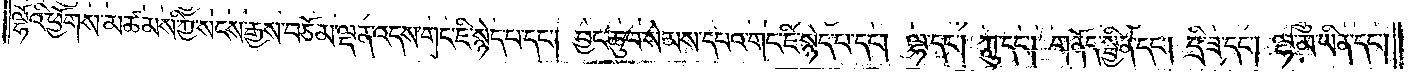ལྷོའི་ཕྱོགས་མཚམས་ཀྱི་སངས་རྒྱས་བཅོམ་ལྡན་འདས་གང་ཇི་སྙེད་པ་དང༌། བྱང་ཆུབ་སེམས་དཔའ་གང་ཇི་སྙེད་པ་དང༌། ལྷ་དང༌། ཀླུ་དང༌། གནོད་སྦྱིན་དང༌། དྲི་ཟ་དང༌། ལྷ་མ་ཡིན་དང༌།
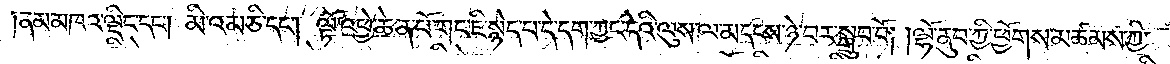ནམ་མཁའ་ལྡིང་དང༌། མི་འམ་ཅི་དང༌། ལྟོ་འཕྱེ་ཆེན་པོ་གང་ཇི་སྙེད་པ་དེ་དག་ཀྱང་དེའི་ལུས་ལ་མདངས་ཉེ་བར་སྒྲུབ་བོ། །ལྷོ་ནུབ་ཀྱི་ཕྱོགས་མཚམས་ཀྱི་
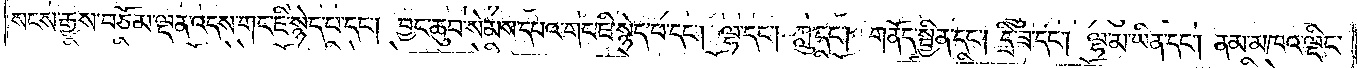སངས་རྒྱས་བཅོམ་ལྡན་འདས་གང་ཇི་སྙེད་པ་དང༌། བྱང་ཆུབ་སེམས་དཔའ་གང་ཇི་སྙེད་པ་དང༌། ལྷ་དང༌། ཀླུ་དང༌། གནོད་སྦྱིན་དང༌། དྲི་ཟ་དང༌། ལྷ་མ་ཡིན་དང༌། ནམ་མཁའ་ལྡིང་
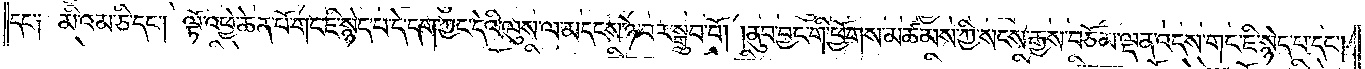དང༌། མི་འམ་ཅི་དང༌། ལྟོ་འཕྱེ་ཆེན་པོ་གང་ཇི་སྙེད་པ་དེ་དག་ཀྱང་དེའི་ལུས་ལ་མདངས་ཉེ་བར་སྒྲུབ་བོ། །ནུབ་བྱང་གི་ཕྱོགས་མཚམས་ཀྱི་སངས་རྒྱས་བཅོམ་ལྡན་འདས་གང་ཇི་སྙེད་པ་དང༌།
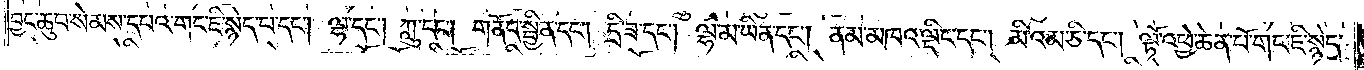བྱང་ཆུབ་སེམས་དཔའ་གང་ཇི་སྙེད་པ་དང༌། ལྷ་དང༌། ཀླུ་དང༌། གནོད་སྦྱིན་དང༌། དྲི་ཟ་དང༌། ལྷ་མ་ཡིན་དང༌། ནམ་མཁའ་ལྡིང་དང༌། མི་འམ་ཅི་དང༌། ལྟོ་འཕྱེ་ཆེན་པོ་གང་ཇི་སྙེད་
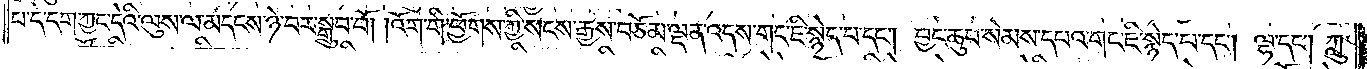པ་དེ་དག་ཀྱང་དེའི་ལུས་ལ་མདངས་ཉེ་བར་སྒྲུབ་བོ། །འོག་གི་ཕྱོགས་ཀྱི་སངས་རྒྱས་བཅོམ་ལྡན་འདས་གང་ཇི་སྙེད་པ་དང༌། བྱང་ཆུབ་སེམས་དཔའ་གང་ཇི་སྙེད་པ་དང༌། ལྷ་དང༌། ཀླུ་
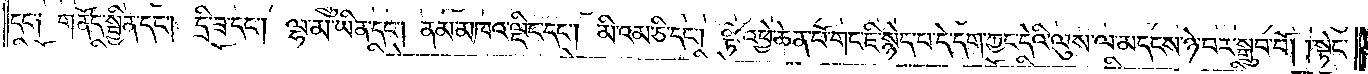དང༌། གནོད་སྦྱིན་དང༌། དྲི་ཟ་དང༌། ལྷ་མ་ཡིན་དང༌། ནམ་མཁའ་ལྡིང་དང༌། མི་འམ་ཅི་དང༌། ལྟོ་འཕྱེ་ཆེན་པོ་གང་ཇི་སྙེད་པ་དེ་དག་ཀྱང་དེའི་ལུས་ལ་མདངས་ཉེ་བར་སྒྲུབ་བོ། །སྟེང་
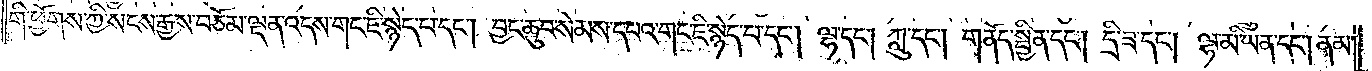གི་ཕྱོགས་ཀྱི་སངས་རྒྱས་བཅོམ་ལྡན་འདས་གང་ཇི་སྙེད་པ་དང༌། བྱང་ཆུབ་སེམས་དཔའ་གང་ཇི་སྙེད་པ་དང༌། ལྷ་དང༌། ཀླུ་དང༌། གནོད་སྦྱིན་དང༌། དྲི་ཟ་དང༌། ལྷ་མ་ཡིན་དང༌། ནམ་
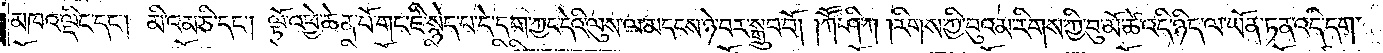མཁའ་ལྡིང་དང༌། མི་འམ་ཅི་དང༌། ལྟོ་འཕྱེ་ཆེན་པོ་གང་ཇི་སྙེད་པ་དེ་དག་ཀྱང་དེའི་ལུས་ལ་མདངས་ཉེ་བར་སྒྲུབ་བོ། །ཀཽ་ཤི་ཀ །རིགས་ཀྱི་བུའམ་རིགས་ཀྱི་བུ་མོ་ཚེ་འདི་ཉིད་ལ་ཡོན་ཏན་འདི་དག་
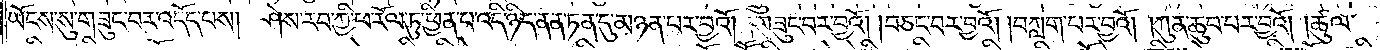ཡོངས་སུ་བཟུང་བར་འདོད་པས། ཤེས་རབ་ཀྱི་ཕ་རོལ་ཏུ་ཕྱིན་པ་འདི་ཉིད་ནན་ཏན་དུ་མཉན་པར་བྱའོ། །གཟུང་བར་བྱའོ། །བཅང་བར་བྱའོ། །བཀླག་པར་བྱའོ། །ཀུན་ཆུབ་པར་བྱའོ། །ཚུལ་
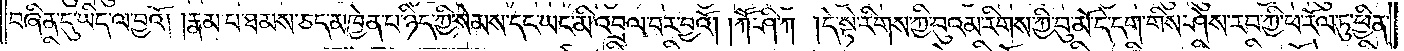བཞིན་དུ་ཡིད་ལ་བྱའོ། །རྣམ་པ་ཐམས་ཅད་མཁྱེན་པ་ཉིད་ཀྱི་སེམས་དང་ཡང་མི་འབྲལ་བར་བྱའོ། །ཀཽ་ཤི་ཀ །དེ་སྟེ་རིགས་ཀྱི་བུའམ་རིགས་ཀྱི་བུ་མོ་དེ་དག་གིས་ཤེས་རབ་ཀྱི་ཕ་རོལ་ཏུ་ཕྱིན་
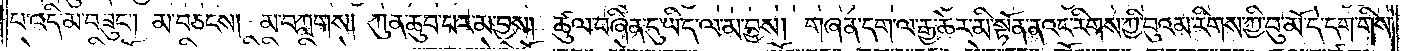པ་འདི་མ་བཟུང༌། མ་བཅངས། མ་བཀླགས། ཀུན་ཆུབ་པར་མ་བྱས། ཚུལ་བཞིན་དུ་ཡིད་ལ་མ་བྱས། གཞན་དག་ལ་རྒྱ་ཆེར་མི་སྟོན་ནའང་རིགས་ཀྱི་བུ་འམ་རིགས་ཀྱི་བུ་མོ་དེ་དག་གིས་
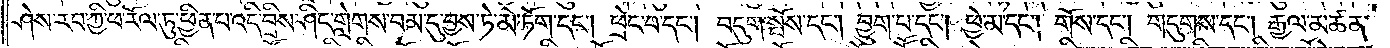ཤེས་རབ་ཀྱི་ཕ་རོལ་ཏུ་ཕྱིན་པ་འདི་བྲིས་ཤིང་གླེགས་བམ་དུ་བྱས་ཏེ་མེ་ཏོག་དང༌། ཕྲེང་བ་དང༌། བདུག་སྤོས་དང༌། བྱུག་པ་དང༌། ཕྱེ་མ་དང༌། གོས་དང༌། གདུགས་དང༌། རྒྱལ་མཚན་
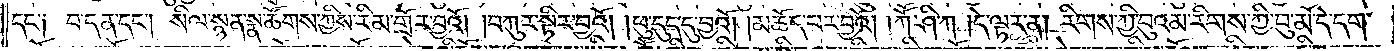དང༌། བ་དན་དང༌། སིལ་སྙན་སྣ་ཚོགས་ཀྱིས་རིམ་གྲོར་བྱའོ། །བཀུར་སྟིར་བྱའོ། །ཕུ་དུད་དུ་བྱའོ། །མཆོད་པར་བྱའོ། །ཀཽ་ཤི་ཀ །དེ་ལྟར་ན། རིགས་ཀྱི་བུའམ་རིགས་ཀྱི་བུ་མོ་དེ་དག་
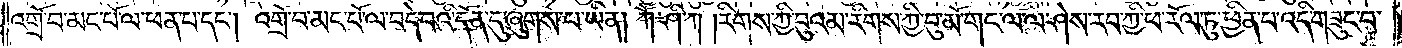འགྲོ་བ་མང་པོ་ལ་ཕན་པ་དང༌། འགྲོ་བ་མང་པོ་ལ་བདེ་བའི་དོན་དུ་ཞུགས་པ་ཡིན། ཀཽ་ཤི་ཀ །རིགས་ཀྱི་བུའམ་རིགས་ཀྱི་བུ་མོ་གང་ལ་ལ་ཤེས་རབ་ཀྱི་ཕ་རོལ་ཏུ་ཕྱིན་པ་འདི་གཟུང་བ་
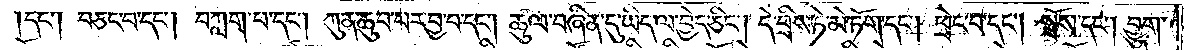དང༌། བཅང་བ་དང༌། བཀླག་པ་དང༌། ཀུན་ཆུབ་པར་བྱ་བ་དང༌། ཚུལ་བཞིན་དུ་ཡིད་ལ་བྱེད་ཅིང༌། དེ་བྲིས་ཏེ་མེ་ཏོག་དང༌། ཕྲེང་བ་དང༌། སྤོས་དང༌། བྱུག་
